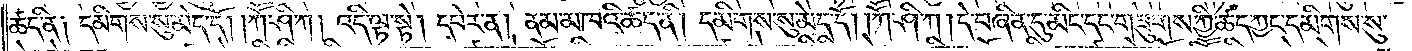ཚད་ནི། དམིགས་སུ་མེད་དོ། །ཀཽ་ཤི་ཀ། འདི་ལྟ་སྟེ། དཔེར་ན། ནམ་མཁའི་ཚད་ནི། དམིགས་སུ་མེད་དོ། །ཀཽ་ཤི་ཀ། དེ་བཞིན་དུ་མིང་དང་གཟུགས་ཀྱི་ཚད་ཀྱང་དམིགས་སུ་
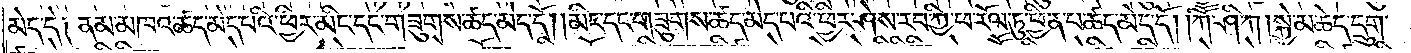མེད་དེ༑ ནམ་མཁའ་ཚད་མེད་པའི་ཕྱིར་མིང་དང་གཟུགས་ཚད་མེད་དོ། །མིང་དང་གཟུགས་ཚད་མེད་པའི་ཕྱིར་ཤེས་རབ་ཀྱི་ཕ་རོལ་ཏུ་ཕྱིན་པ་ཚད་མེད་དོ། །ཀཽ་ཤི་ཀ། སྐྱེ་མཆེད་དྲུག་
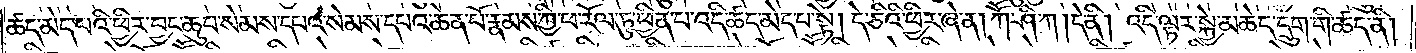ཚད་མེད་པའི་ཕྱིར་བྱང་ཆུབ་སེམས་དཔའ་སེམས་དཔའ་ཆེན་པོ་རྣམས་ཀྱི་ཕ་རོལ་ཏུ་ཕྱིན་པ་འདི་ཚད་མེད་པ་སྟེ། དེ་ཅིའི་ཕྱིར་ཞེ་ན། ཀཽ་ཤི་ཀ། དེ་ནི། འདི་ལྟར་སྐྱེ་མཆེད་དྲུག་གི་ཚད་ནི།
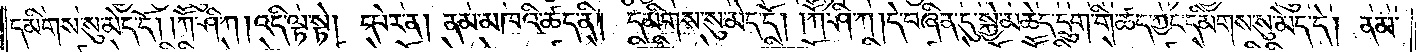དམིགས་སུ་མེད་དོ། །ཀཽ་ཤི་ཀ། འདི་ལྟ་སྟེ། དཔེར་ན། ནམ་མཁའི་ཚད་ནི། དམིགས་སུ་མེད་དོ། །ཀཽ་ཤི་ཀ། དེ་བཞིན་དུ་སྐྱེ་མཆེད་དྲུག་གི་ཚད་ཀྱང་དམིགས་སུ་མེད་དེ། ནམ་
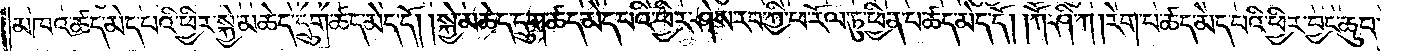མཁའ་ཚད་མེད་པའི་ཕྱིར་སྐྱེ་མཆེད་དྲུག་ཚད་མེད་དོ། །སྐྱེ་མཆེད་དྲུག་ཚད་མེད་པའི་ཕྱིར་ཤེས་རབ་ཀྱི་ཕ་རོལ་ཏུ་ཕྱིན་པ་ཚད་མེད་དོ། །ཀཽ་ཤི་ཀ། རེག་པ་ཚད་མེད་པའི་ཕྱིར་བྱང་ཆུབ་
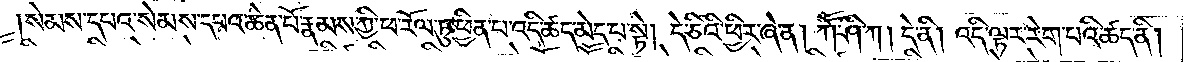སེམས་དཔའ་སེམས་དཔའ་ཆེན་པོ་རྣམས་ཀྱི་ཕ་རོལ་ཏུ་ཕྱིན་པ་འདི་ཚད་མེད་པ་སྟེ། དེ་ཅིའི་ཕྱིར་ཞེ་ན། ཀཽ་ཤི་ཀ། དེ་ནི། འདི་ལྟར་རེག་པའི་ཚད་ནི།
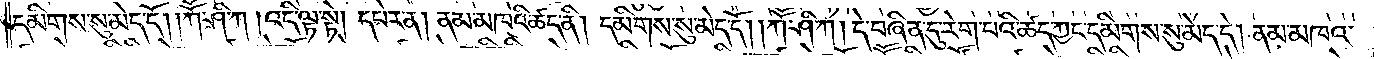དམིགས་སུ་མེད་དོ། །ཀཽ་ཤི་ཀ། འདི་ལྟ་སྟེ། དཔེར་ན། ནམ་མཁའི་ཚད་ནི། དམིགས་སུ་མེད་དོ། །ཀཽ་ཤི་ཀ། དེ་བཞིན་དུ་རེག་པའི་ཚད་ཀྱང་དམིགས་སུ་མེད་དེ། ནམ་མཁའ་
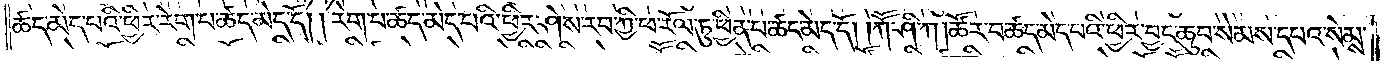ཚད་མེད་པའི་ཕྱིར་རེག་པའི་ཚད་མེད་དོ། །རེག་པ་ཚད་མེད་པའི་ཕྱིར་ཤེས་རབ་ཀྱི་ཕ་རོལ་ཏུ་ཕྱིན་པ་ཚད་མེད་དོ། །ཀཽ་ཤི་ཀ། ཚོར་བ་ཚད་མེད་པའི་ཕྱིར་བྱང་ཆུབ་སེམས་དཔའ་སེམས་
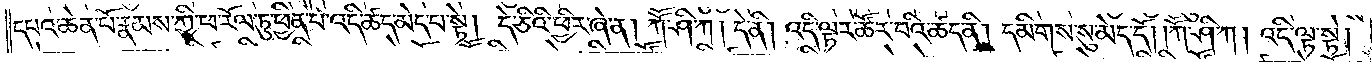དཔའ་ཆེན་པོ་རྣམས་ཀྱི་ཕ་རོལ་ཏུ་ཕྱིན་པ་འདི་ཚད་མེད་པ་སྟེ། དེ་ཅིའི་ཕྱིར་ཞེ་ན། ཀཽ་ཤི་ཀ། དེ་ནི། འདི་ལྟར་ཚོར་བའི་ཚད་ནི། དམིགས་སུ་མེད་དོ། །ཀཽ་ཤི་ཀ། འདི་ལྟ་སྟེ།
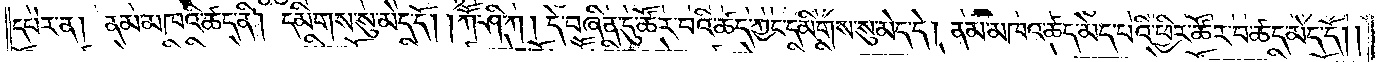དཔེར་ན། ནམ་མཁའི་ཚད་ནི། དམིགས་སུ་མེད་དོ། །ཀཽ་ཤི་ཀ། དེ་བཞིན་དུ་ཚོར་བའི་ཚད་ཀྱང་དམིགས་སུ་མེད་དེ། ནམ་མཁའ་ཚད་མེད་པའི་ཕྱིར་ཚོར་བ་ཚད་མེད་དོ༎
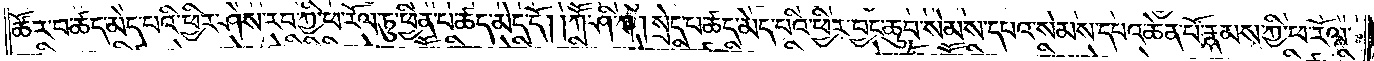ཚོར་བ་ཚད་མེད་པའི་ཕྱིར་ཤེས་རབ་ཀྱི་ཕ་རོལ་ཏུ་ཕྱིན་པ་ཚད་མེད་དོ། །ཀཽ་ཤི་ཀ། སྲེད་པ་ཚད་མེད་པའི་ཕྱིར་བྱང་ཆུབ་སེམས་དཔའ་སེམས་དཔའ་ཆེན་པོ་རྣམས་ཀྱི་ཕ་རོལ་
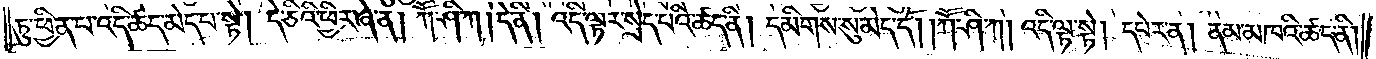ཏུ་ཕྱིན་པ་འདི་ཚད་མེད་པ་སྟེ། དེ་ཅིའི་ཕྱིར་ཞེ་ན། ཀཽ་ཤི་ཀ། དེ་ནི། འདི་ལྟར་སྲེད་པའི་ཚད་ནི། དམིགས་སུ་མེད་དོ། །ཀཽ་ཤི་ཀ། འདི་ལྟ་སྟེ། དཔེར་ན། ནམ་མཁའི་ཚད་ནི།
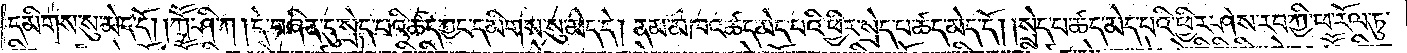དམིགས་སུ་མེད་དོ། །ཀཽ་ཤི་ཀ། དེ་བཞིན་དུ་སྲེད་པའི་ཚད་ཀྱང་དམིགས་སུ་མེད་དེ། ནམ་མཁའ་ཚད་མེད་པའི་ཕྱིར་སྲེད་པ་ཚད་མེད་དོ། །སྲེད་པ་ཚད་མེད་པའི་ཕྱིར་ཤེས་རབ་ཀྱི་ཕ་རོལ་ཏུ་
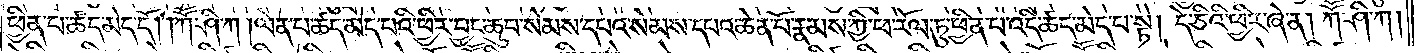ཕྱིན་པ་ཚད་མེད་དོ། །ཀཽ་ཤི་ཀ། ལེན་པ་ཚད་མེད་པའི་ཕྱིར་བྱང་ཆུབ་སེམས་དཔའ་སེམས་དཔའ་ཆེན་པོ་རྣམས་ཀྱི་ཕ་རོལ་ཏུ་ཕྱིན་པ་འདི་ཚད་མེད་པ་སྟེ། དེ་ཅིའི་ཕྱིར་ཞེ་ན། ཀཽ་ཤི་ཀ།
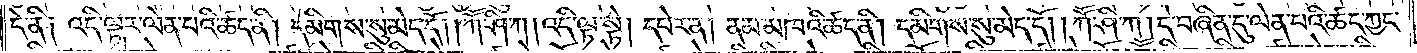དེ་ནི༑ འདི་ལྟར་ལེན་པའི་ཚད་ནི། དམིགས་སུ་མེད་དོ། །ཀཽ་ཤི་ཀ། འདི་ལྟ་སྟེ། དཔེར་ན། ནམ་མཁའི་ཚད་ནི། དམིགས་སུ་མེད་དོ། །ཀཽ་ཤི་ཀ། དེ་བཞིན་དུ་ལེན་པའི་ཚད་ཀྱང་
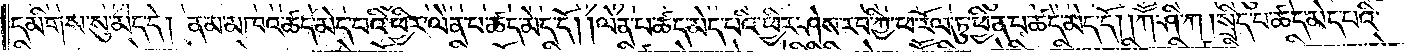དམིགས་སུ་མེད་དེ། ནམ་མཁའ་ཚད་མེད་པའི་ཕྱིར་ལེན་པ་ཚད་མེད་དོ། །ལེན་པ་ཚད་མེད་པའི་ཕྱིར་ཤེས་རབ་ཀྱི་ཕ་རོལ་ཏུ་ཕྱིན་པ་ཚད་མེད་དོ། །ཀཽ་ཤི་ཀ། སྲིད་པ་ཚད་མེད་པའི་
